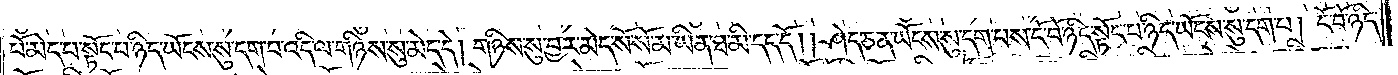པོ་མེད་པ་སྟོང་པ་ཉིད་ཡོངས་སུ་དག་པ་འདི་ལ་གཉིས་སུ་མེད་དེ། གཉིས་སུ་བྱར་མེད་སོ་སོ་མ་ཡིན་ཐ་མི་དད་དོ། །ཤེད་ཅན་ཡོངས་སུ་དག་པས་ངོ་བོ་ཉིད་སྟོང་པ་ཉིད་ཡོངས་སུ་དག་པ། ངོ་བོ་ཉིད་
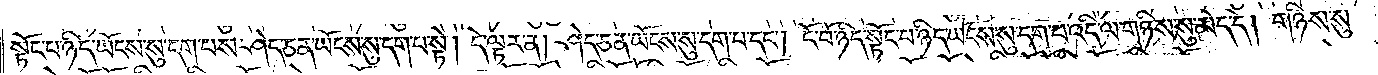སྟོང་པ་ཉིད་ཡོངས་སུ་དག་པས་ཤེད་ཅན་ཡོངས་སུ་དག་པ་སྟེ། དེ་ལྟར་ན། ཤེད་ཅན་ཡོངས་སུ་དག་པ་དང༌། ངོ་བོ་ཉིད་སྟོང་པ་ཉིད་ཡོངས་སུ་དག་པ་འདི་ལ་གཉིས་སུ་མེད་དེ། གཉིས་སུ་
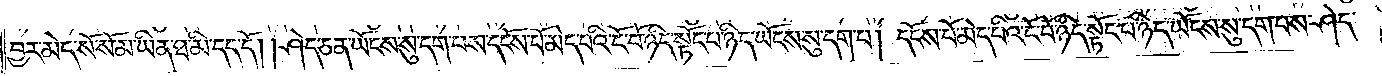བྱར་མེད་སོ་སོ་མ་ཡིན་ཐ་མི་དད་དོ། །ཤེད་ཅན་ཡོངས་སུ་དག་པས་དངོས་པ་མེད་པའི་ངོ་བོ་ཉིད་སྟོང་པ་ཉིད་ཡོངས་སུ་དག་པ། དངོས་པོ་མེད་པའི་ངོ་བོ་ཉིད་སྟོང་པ་ཉིད་ཡོངས་སུ་དག་པས་ཤེད་
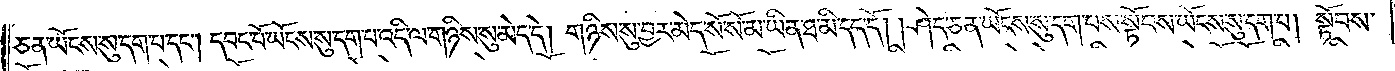ཅན་ཡོངས་སུ་དག་པ་དང༌། དབང་པོ་ཡོངས་སུ་དག་པ་འདི་ལ་གཉིས་སུ་མེད་དེ། གཉིས་སུ་བྱར་མེད་སོ་སོ་མ་ཡིན་ཐ་མི་དད་དོ། །ཤེད་ཅན་ཡོངས་སུ་དག་པས་སྟོབས་ཡོངས་སུ་དག་པ། སྟོབས་
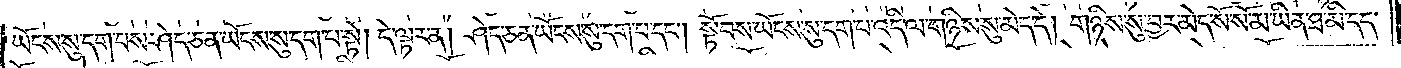ཡོངས་སུ་དག་པས་ཤེད་ཅན་ཡོངས་སུ་དག་པ་སྟེ། དེ་ལྟར་ན། ཤེད་ཅན་ཡོངས་སུ་དག་པ་དང༌། སྟོབས་ཡོངས་སུ་དག་པ་འདི་ལ་གཉིས་སུ་མེད་དེ། གཉིས་སུ་བྱར་མེད་སོ་སོ་མ་ཡིན་ཐ་མི་དད་
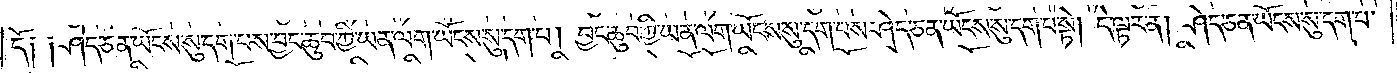དོ༑ ༑ཤེད་ཅན་ཡོངས་སུ་དག་པས་བྱང་ཆུབ་ཀྱི་ཡན་ལག་ཡོངས་སུ་དག་པ། བྱང་ཆུབ་ཀྱི་ཡན་ལག་ཡོངས་སུ་དག་པས་ཤེད་ཅན་ཡོངས་སུ་དག་པ་སྟེ། དེ་ལྟར་ན། ཤེད་ཅན་ཡོངས་སུ་དག་པ་
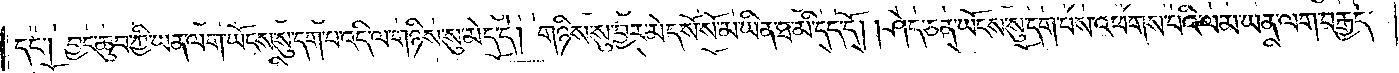དང༌། བྱང་ཆུབ་ཀྱི་ཡན་ལག་ཡོངས་སུ་དག་པ་འདི་ལ་གཉིས་སུ་མེད་དེ། གཉིས་སུ་བྱར་མེད་སོ་སོ་མ་ཡིན་ཐ་མི་དད་དོ། །ཤེད་ཅན་ཡོངས་སུ་དག་པས་འཕགས་པའི་ལམ་ཡན་ལག་བརྒྱད་
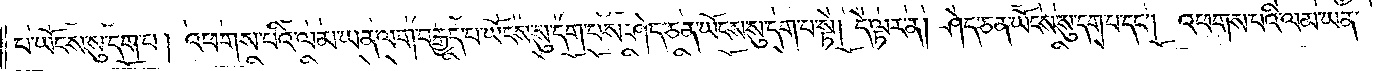པ་ཡོངས་སུ་དག་པ། འཕགས་པའི་ལམ་ཡན་ལག་བརྒྱད་པ་ཡོངས་སུ་དག་པས་ཤེད་ཅན་ཡོངས་སུ་དག་པ་སྟེ། དེ་ལྟར་ན། ཤེད་ཅན་ཡོངས་སུ་དག་པ་དང༌། འཕགས་པའི་ལམ་ཡན་
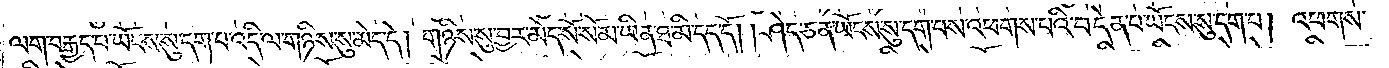ལག་བརྒྱད་པ་ཡོངས་སུ་དག་པ་འདི་ལ་གཉིས་སུ་མེད་དེ། གཉིས་སུ་བྱར་མེད་སོ་སོ་མ་ཡིན་ཐ་མི་དད་དོ། །ཤེད་ཅན་ཡོངས་སུ་དག་པས་འཕགས་པའི་བདེན་པ་ཡོངས་སུ་དག་པ། འཕགས་
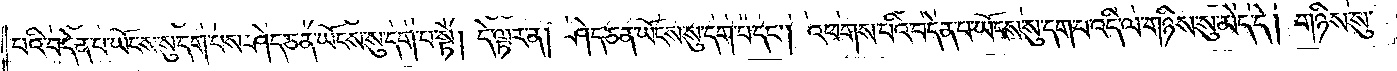པའི་བདེན་པ་ཡོངས་སུ་དག་པས་ཤེད་ཅན་ཡོངས་སུ་དག་པ་སྟེ། དེ་ལྟར་ན། ཤེད་ཅན་ཡོངས་སུ་དག་པ་དང༌། འཕགས་པའི་བདེན་པ་ཡོངས་སུ་དག་པ་འདི་ལ་གཉིས་སུ་མེད་དེ། གཉིས་སུ་
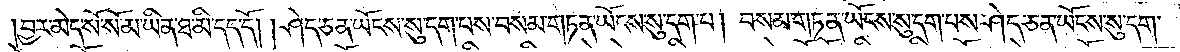བྱར་མེད་སོ་སོ་མ་ཡིན་ཐ་མི་དད་དོ། །ཤེད་ཅན་ཡོངས་སུ་དག་པས་བསམ་གཏན་ཡོངས་སུ་དག་པ། བསམ་གཏན་ཡོངས་སུ་དག་པས་ཤེད་ཅན་ཡོངས་སུ་དག་
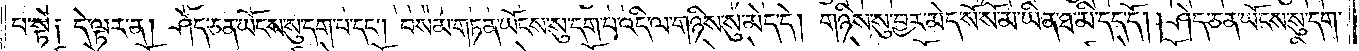པ་སྟེ༑ དེ་ལྟར་ན། ཤེད་ཅན་ཡོངས་སུ་དག་པ་དང༌། བསམ་གཏན་ཡོངས་སུ་དག་པ་འདི་ལ་གཉིས་སུ་མེད་དེ། གཉིས་སུ་བྱར་མེད་སོ་སོ་མ་ཡིན་ཐ་མི་དད་དོ། །ཤེད་ཅན་ཡོངས་སུ་དག་
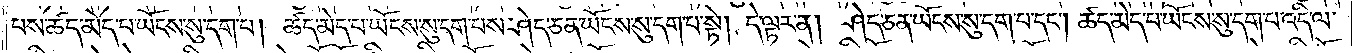པས་ཚད་མེད་པ་ཡོངས་སུ་དག་པ། ཚད་མེད་པ་ཡོངས་སུ་དག་པས་ཤེད་ཅན་ཡོངས་སུ་དག་པ་སྟེ། དེ་ལྟར་ན། ཤེད་ཅན་ཡོངས་སུ་དག་པ་དང༌། ཚད་མེད་པ་ཡོངས་སུ་དག་པ་འདི་ལ་
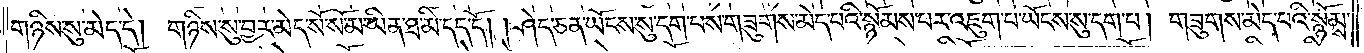གཉིས་སུ་མེད་དེ། གཉིས་སུ་བྱར་མེད་སོ་སོ་མ་ཡིན་ཐ་མི་དད་དོ། །ཤེད་ཅན་ཡོངས་སུ་དག་པས་གཟུགས་མེད་པའི་སྙོམས་པར་འཇུག་པ་ཡོངས་སུ་དག་པ། གཟུགས་མེད་པའི་སྙོམས་
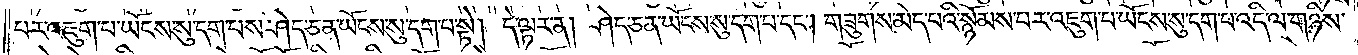པར་འཇུག་པ་ཡོངས་སུ་དག་པས་ཤེད་ཅན་ཡོངས་སུ་དག་པ་སྟེ། དེ་ལྟར་ན། ཤེད་ཅན་ཡོངས་སུ་དག་པ་དང༌། གཟུགས་མེད་པའི་སྙོམས་པར་འཇུག་པ་ཡོངས་སུ་དག་པ་འདི་ལ་གཉིས་
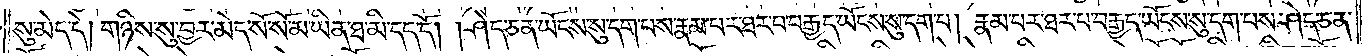སུ་མེད་དེ། གཉིས་སུ་བྱར་མེད་སོ་སོ་མ་ཡིན་ཐ་མི་དད་དོ། །ཤེད་ཅན་ཡོངས་སུ་དག་པས་རྣམ་པར་ཐར་པ་བརྒྱད་ཡོངས་སུ་དག་པ། རྣམ་པར་ཐར་པ་བརྒྱད་ཡོངས་སུ་དག་པས་ཤེད་ཅན་
